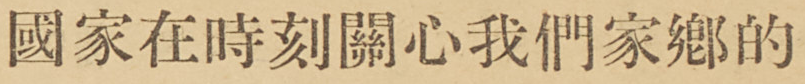國家在時刻關心我們家鄉的
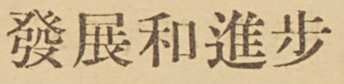發展和進步
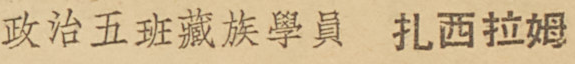政治五班藏族學員 扎西拉姆
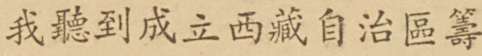我聽到成立西藏自治區籌
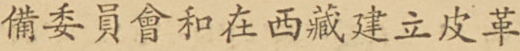備委員會和在西藏建立皮革
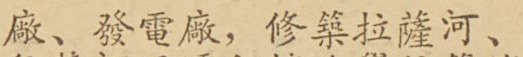廠、發電廠，修築拉薩河、
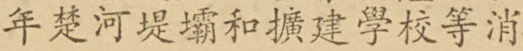年楚河堤壩和擴建學校等消
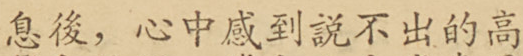息後，心中感到說不出的高
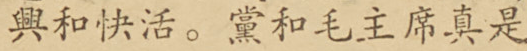興和快活。黨和毛主席真是
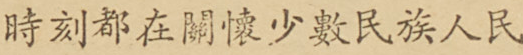時刻都在關懷少數民族人民
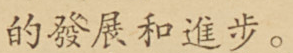的發展和進步。
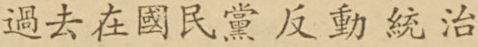過去在國民黨反動統治
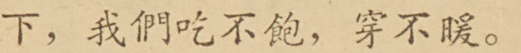下，我們吃不飽，穿不暖。
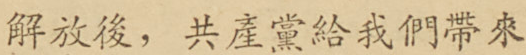解放後，共產黨給我們帶來
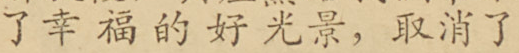了幸福的好光景，取消了
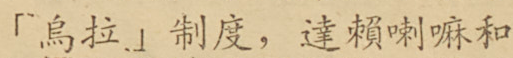「烏拉」制度，達賴喇嘛和
